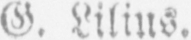G. Lilius.
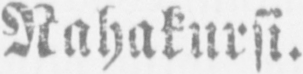Rahakursi.
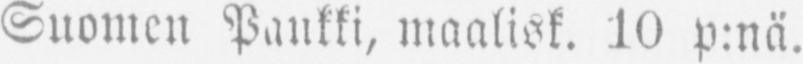Suomen Pankki, maalisk. 10 p:nä.
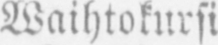Waihtokursi
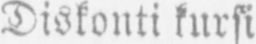Diskonti kursi
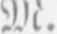S.M.
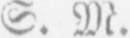S. M.
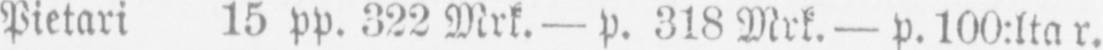Pietari 15 pp. 322 Mrk.-p.318 Mrt.-p.100:lta r.
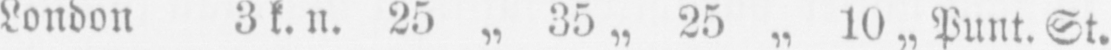London 3 k.n.25. „ 35„ 25 „ 10„Punt.St.
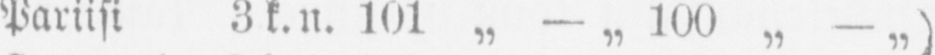Pariisi 3k.n. 10 1„ -„ 100„ -„)
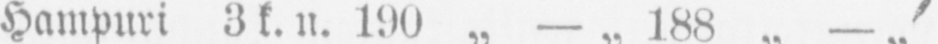Hampuri 3k.n. 190 „ - „ 188„-„
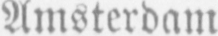Amsterdam
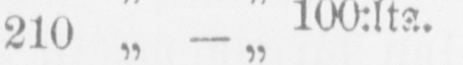Amsterdam 210„-„ 100:lta.
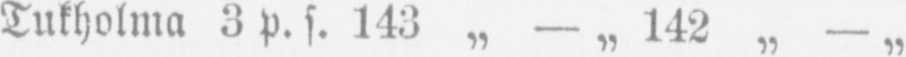Tukholma 3 p.s. 143 „ — „ 142 „ - „
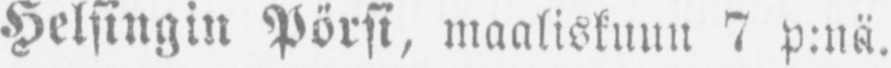Helsingin Pörsi, maaliskuun 7 p:nä.
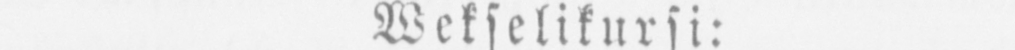Wekselikursi:
